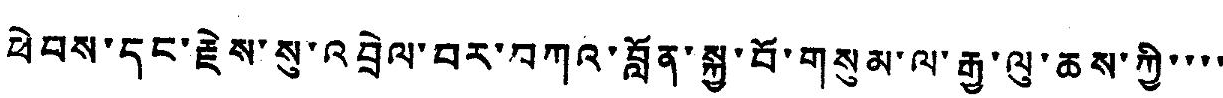ཕེབས་དང་རྗེས་སུ་འབྲེལ་བར་བཀའ་བློན་སྐྱ་བོ་གསུམ་ལ་རྒྱ་ལུ་ཆས་ཀྱི་་་་
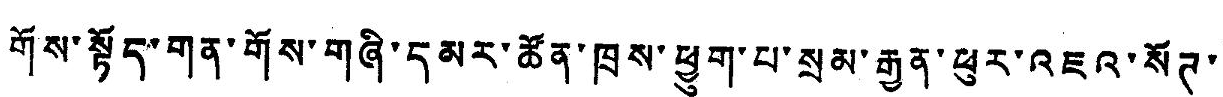གོས་སྟོད་གན་གོས་གཞི་དམར་ཚོན་ཁྲས་ཕྱུག་པ་སྲམ་རྒྱན་ཕུར་འཇའ་སོཊ་
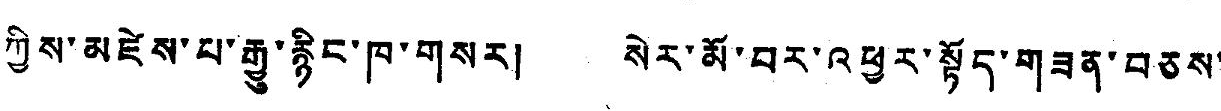ཀྱིས་མཛེས་པ་རྒྱུ་རྙིང་ཁ་གསར། སེར་མོ་བར་འཕྱར་སྟོད་གཟན་བཅས་
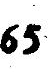65
